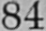84
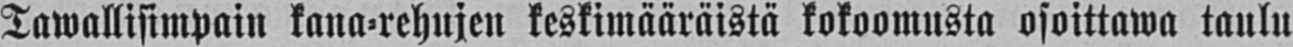Tawallisimpain kana-rehujen keskimääräistä kokoomusta osoittawa taulu
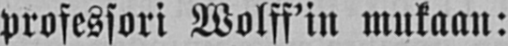professori Wolff'in mukaan:
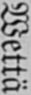Wettä
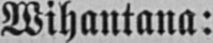Wihantana:
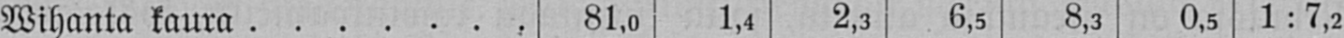Wihanta kaura 81,0 1,4 2,3 6,5 8,3 0,5 1:7,2
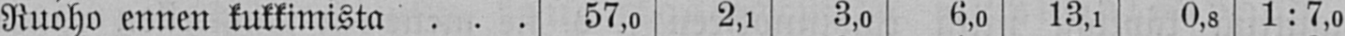Ruoho ennen kukkimista 57,0 2,1 3,0 6,0 13,1 0,8 1 :7,0
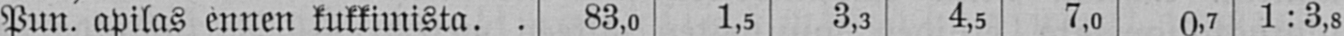Pun. apilas ennen kukkimista 83,0 1,5 3,3 4,5 7,0 0,7 1:3,8
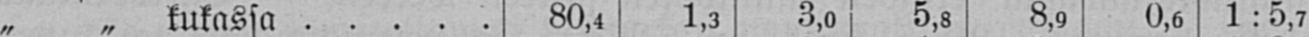„ „ kukassa 80,4 1,3 3,0 5,8 8,9 0,6 1 : 5,7
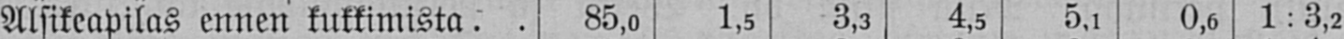Alsikeapilas ennen kukkimista 85,0 1,5 3,3 4,5 5,1 0,6 1:3,2
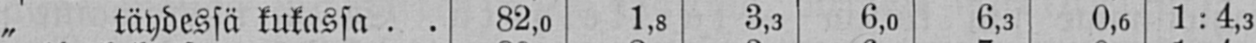„ täydessä kukassa 82,0 1,8 3,3 6,0 6,3 0,6 1:4,3
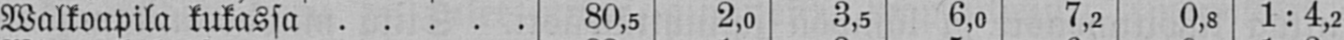Walkoapila kukassa 80,5 2,0 3,5 6,0 7,2 0,8 1:4,2
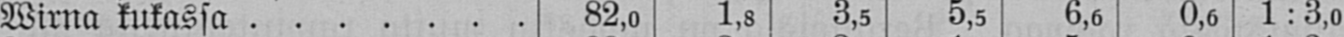Wirna kukassa 82,0 1,8 3,5 5,5 6,6 0,6 1: 3,0
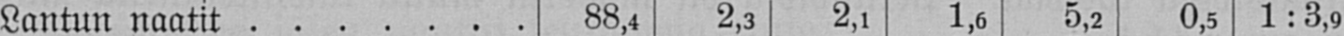Lantun naatit 88,4 2,3 2,1 1,6 5,2 0,5 1:3,9
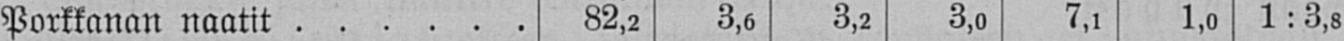Porkkanan naatit 82,2 3,6 3,2 3,0 7,1 1,0 1:3,8
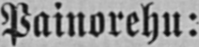Painorehu:
